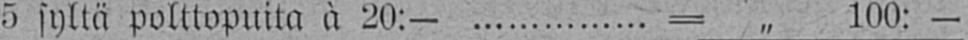5 syltä polttopuita à 20:— = „ 100: —
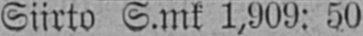Siirto S.mk 1,909: 50
